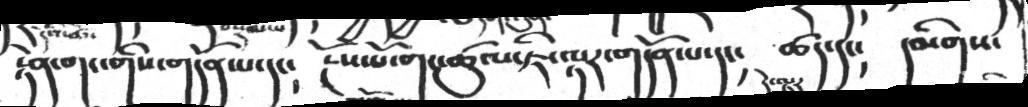རྟེན་གང་གིས་གདོན་པ་དང༴  རྔོས་པོ་གང་ཚུལ་ཇི་ལྟར་གདོན་པ་དང༴  ཚད་དང༴  དམིགས་
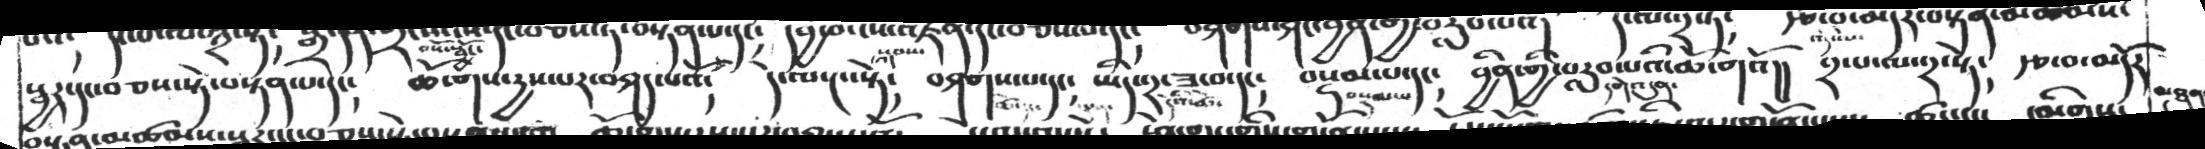སྦྱར་དང་བཅས་སྟེ་བསྟན་པ་དང༴  ཆོ་གས་དྱས་པར་བཤད་པའོ༴   དེ་ལ་༤་སྟེ༴   བཤགས་པ་དང༴  ཡིད་༢་ཟ་བ་དང༴  བསླབ་པ་དང༴  བྱིན་གྱི་བརླབ་པའི་ཆོ་གའོ།། ༢་པ་ལ་༢་སྟེ༴   རྩ་བ་མདོར
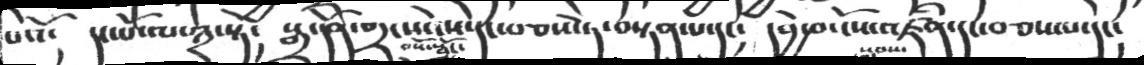པའོ༴  དང་པོ་ལ་༣་སྟེ༴  སྒྲ་དོན་གྲངས་ངེས་དང་བཅས་ཏེ་བསྟན་པ་དང༴   དབྱེ་བ་ངོས་འཛིནདང་བཅས་པ་དང༴
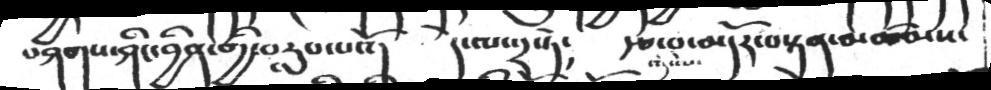བཤགས་ཤིང་བྱིན་གྱི་་བརླབ་པའོ།  དེ་ལ་༢་ཏེ༴   རྩ་བ་མདོར་བསྟན་མཚམས་
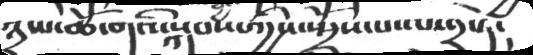༣་པ་ཆོ་གའི་སྐབས་ཀྱིས་སྤྲོས་པ་ལ་༢་ཏེ།
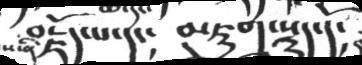བརྗོད་པ་དང༴  མཇུག་སྡུད་དོ༴
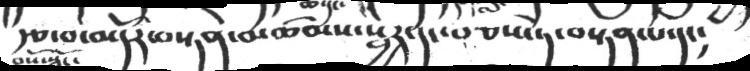རྩ་བ་མདོར་བསྟན་མཚམས་སྦྱར་དང་བཅས་ཏེ་བསྟན་པ་དང༴
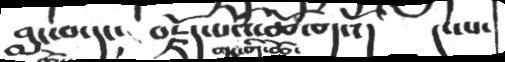བླང་བ་དང༴   བརྗོད་པའི་ཆོ་གའོ།  ༤་པ་
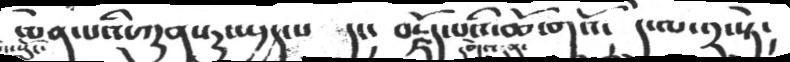ལེན་པའི་ཀུན་ཏུ་སྤྱད་པ་  དང༴   བརྗོད་པའི་ཆོ་གའོ༴  དེ་ལ་༢་སྟེ༴
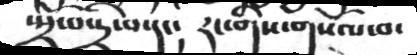སྤྲོ་པ་དྲི་པདང།  རང་གིས་གསོལ་བ་
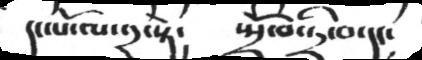དང་པོ་ལ་༢་སྟེ།  སྤྲོ་བ་དྲི་བ་དང་
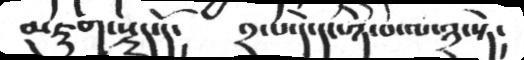མཇུག་སྡུད་དོ།   ༢་པ་དེ་དང་ཉ་པ་ལ་༣་སྟེ།
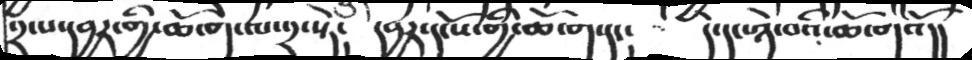༢་པ་དབྱར་གྱི་ཆོ་ག་ལ་༢་སྟེ།  དབྱར་དངོས་གྱི་ཆོ་ག་དང།  དེ་དང་ཉེ་བའི་ཆོ་གའོ།།
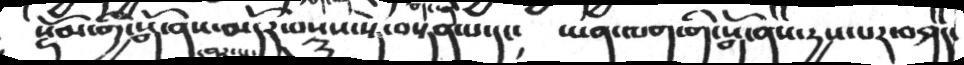སྡོམ་གྱི་སྒོ་ནས་མདོར་བསྡུས་སྟེ་བསྟན་པ་དང༴   ཡན་ལག་གི་སྒོ་ནས་དྱས་པར་བཤད་
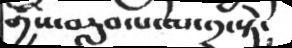གྱིས་བརླབ་པ་ལ་༢་སྟེ།
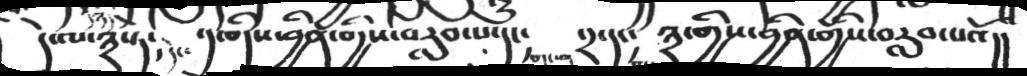དེ་ལ་༣་སྟེ༴   ༡་གིས་བྱིན་གྱིས་བརླབ་པ་དང༴   ༢་དང༴   ༣་གྱིས་བྱིན་གྱིས་བརླབ་པའོ།།
